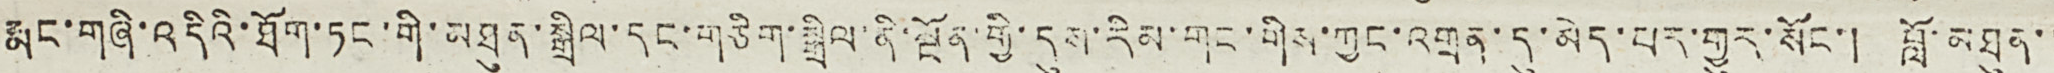རྨང་གཞི་འདིའི་ཐོག་ཏང་གི་མཐུན་སྒྲིལ་དང་གཅིག་སྒྲིལ་ནི་སྔོན་གྱི་དུས་རིམ་གང་གིས་ཀྱང་འགྲན་དུ་མེད་པར་གྱུར་སོང་། བློ་མཐུན་་
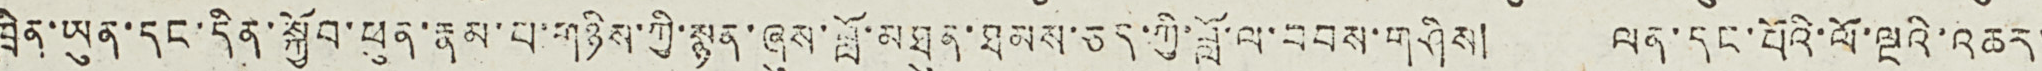ཁྲིན་ཡུན་དང་དིན་སྐྱོབ་ཕུན་རྣམ་པ་གཉིས་ཀྱི་སྙན་ཞུས་བློ་མཐུན་ཐམས་ཅད་ཀྱི་བློ་ལ་བབས་གཤིས། ལན་དང་པོའི་ལོ་ལྔའི་འཆར་
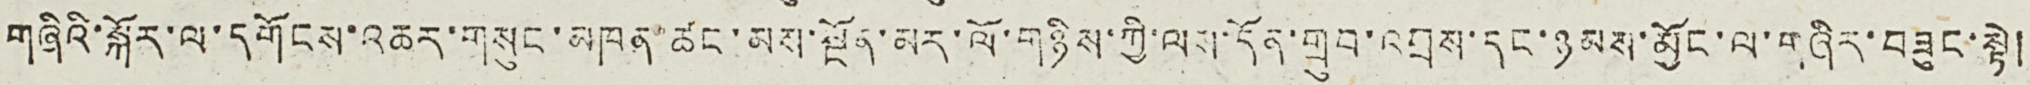གཞིའི་སྐོར་ལ་དགོངས་འཆར་གསུང་མཁན་ཚང་མས་སྔོན་མར་ལོ་གཉིས་ཀྱི་ལས་དོན་གྲུབ་འབྲས་དང་ཉམས་མྱོང་ལ་གཞིར་བཟུང་སྟེ།
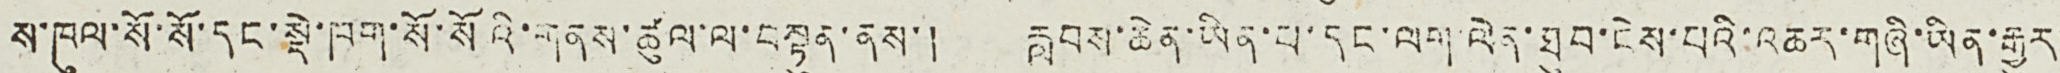ས་ཁུལ་སོ་སོ་དང་སྡེ་ཁག་སོ་སོའི་གནས་ཚུལ་ལ་བསྟུན་ནས་། རླབས་ཆེན་ཡིན་པ་དང་ལག་ལེན་ཐུབ་ངེས་པའི་འཆར་གཞི་ཡིན་རྒྱུར་
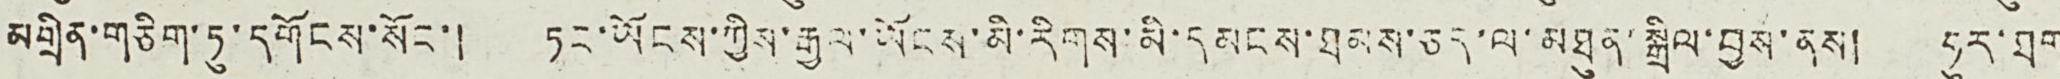མགྲིན་གཅིག་ཏུ་དགོངས་སོང་། ཏང་ཡོངས་ཀྱིས་རྒྱལ་ཡོངས་མི་རིགས་མི་དམངས་ཐམས་ཅད་ལ་མཐུན་སྒྲིལ་བྱས་ནས། ཧུར་ཐག
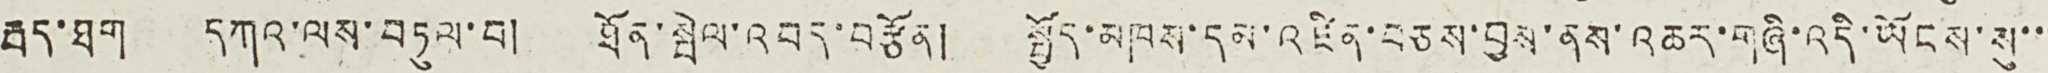རྦད་ཐག དཀའ་ལས་བཏུལ་བ། ཐོན་སྤེལ་འབད་བརྩོན། སྤྱོད་མཁས་དམ་འཛིན་བཅས་བྱས་ནས་འཆར་གཞི་འདི་ཡོངས་སུ་་་
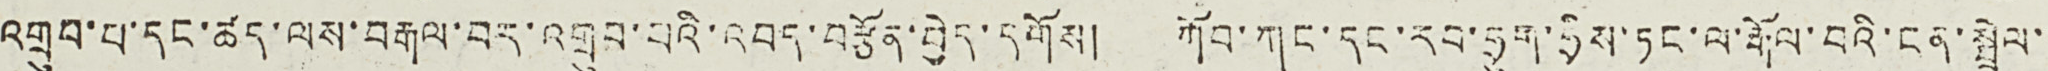འགྲུབ་པ་དང་ཚད་ལས་བརྒལ་བར་འགྲུབ་པའི་འབད་བརྩོན་བྱེད་དགོས། ཀོབ་ཀང་དང་རབ་ཧྲུག་ཧྲིས་ཏང་ལ་རྒོལ་བའི་ངན་སྦྲེལ་་
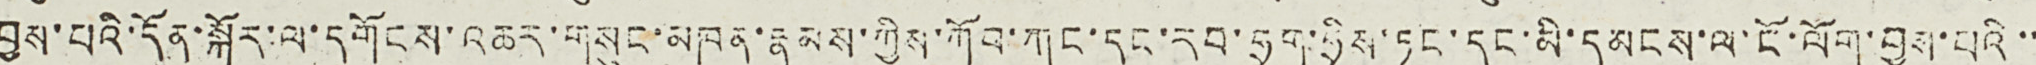བྱས་པའི་དོན་སྐོར་ལ་དགོངས་འཆར་གསུང་མཁན་རྣམས་ཀྱིས་ཀོབ་ཀང་དང་རབ་ཧྲུག་ཧྲིས་ཏང་དང་མི་དམངས་ལ་ངོ་ལོག་བྱས་པའི་་་
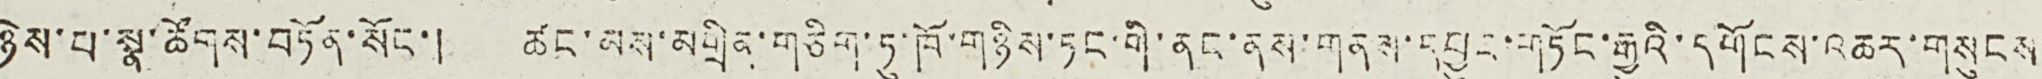ཉེས་པ་སྣ་ཚོགས་བཏོན་སོང་། ཚང་མས་མགྲིན་གཅིག་ཏུ་ཁོ་གཉིས་ཏང་གི་ནང་ནས་གནས་དབྱུང་གཏོང་རྒྱུའི་དགོངས་འཆར་གསུངས་
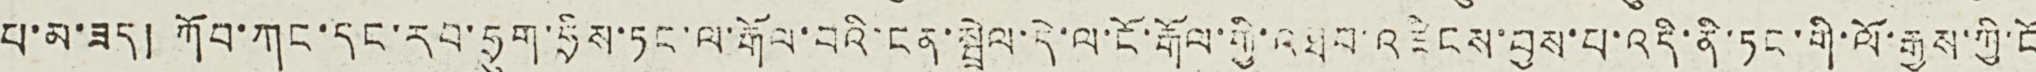པ་མ་ཟད། ཀོབ་ཀང་དང་རབ་ཧྲུག་ཧྲིས་ཏང་ལ་རྒོལ་བའི་ངན་སྦྲེལ་དེ་ལ་ངོ་རྒོལ་གྱི་འཐབ་འཛིངས་བྱས་པ་འདི་ནི་ཏང་གི་ལོ་རྒྱས་ཀྱི་ངོ་
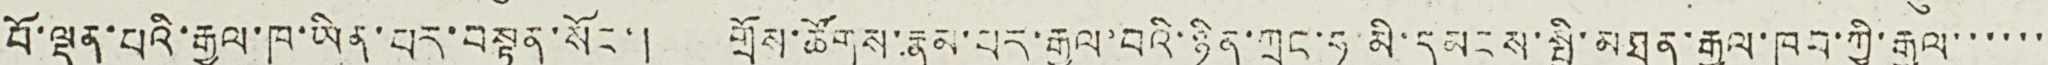བོ་ལྡན་པའི་རྒྱལ་ཁ་ཡིན་པར་བསྟན་སོང་། གྲོས་ཚོགས་རྣམ་པར་རྒྱལ་བའི་ཉིན་ཀྲུང་ཧ་མི་དམངས་སྤྱི་མཐུན་རྒྱལ་ཁབ་ཀྱི་རྒྱལ་་་་་་་
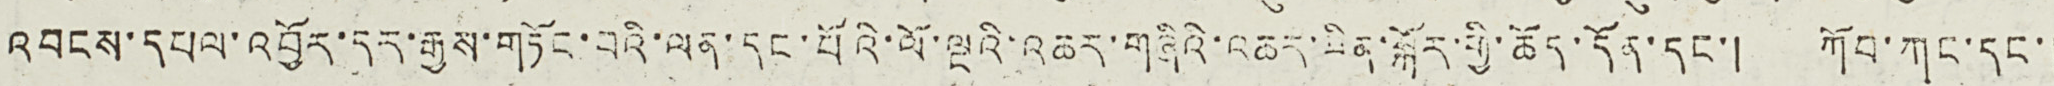འབངས་དཔལ་འབྱོར་དར་རྒྱས་གཏོང་བའི་ལན་དང་པོའི་ལོ་ལྔའི་འཆར་གཞིའི་འཆར་ཟིན་སྐོར་གྱི་ཆོད་དོན་དང་། ཀོབ་ཀང་དང་།
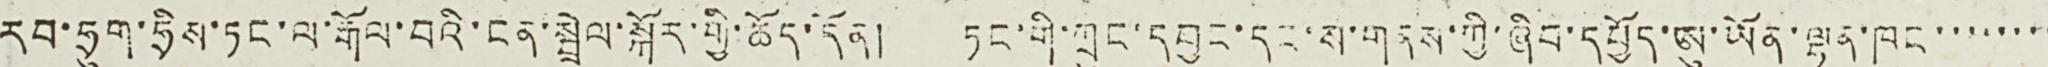རབ་ཧྲུག་ཧྲིས་ཏང་ལ་རྒོལ་བའི་ངན་སྦྲེལ་སྐོར་གྱི་ཆོད་དོན། ཏང་གི་ཀྲུང་དབྱང་དང་ས་གནས་ཀྱི་ཞིབ་དཔྱོད་ཨུ་ཡོན་ལྷན་ཁང་་་་་་་་
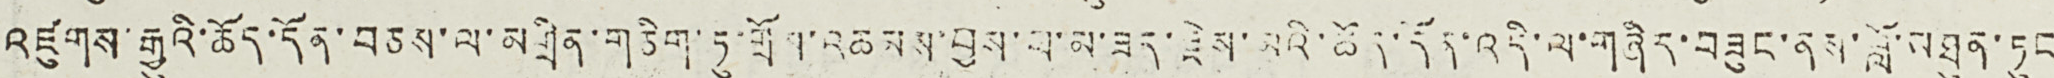འཛུགས་རྒྱུའི་ཆོད་དོན་བཅས་ལ་མགྲིན་གཅིག་ཏུ་གྲོས་འཆམས་བྱས་པ་མ་ཟད་རྗེས་མའི་ཆོད་དོན་འདི་ལ་གཞིར་བཟུང་ནས་བློ་མཐུན་ཏུང
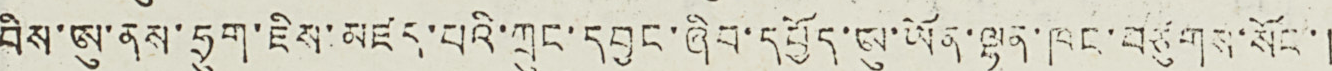བིས་ཨུ་ནས་ཧྲུག་ཇིས་མཛད་པའི་ཀྲུང་དབྱང་ཞིབ་དཔྱོད་ཨུ་ཡོན་ལྷན་ཁང་བཙུགས་སོང་།
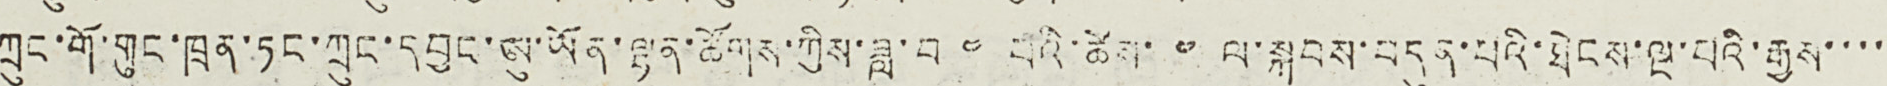ཀྲུང་གོ་གུང་ཁྲན་ཏང་ཀྲུང་དབྱང་ཨུ་ཡོན་ལྷན་ཚོགས་ཀྱིས་ཟླ་བ ༤ པའི་ཚེས་ ༤ ལ་སྐབས་བདུན་པའི་ཐེངས་ལྔ་པའི་རྒྱས་་་་་
